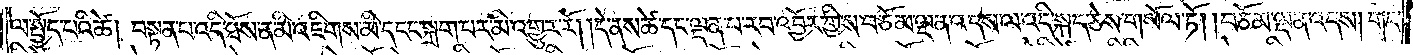ལ་སྤྱོད་པའི་ཚེ། བསྟན་པ་འདི་ཐོས་ན་མི་འཇིགས་མི་དངང་སྐྲག་པར་མི་འགྱུར་རོ། །དེ་ནས་ཚེ་དང་ལྡན་པ་རབ་འབྱོར་གྱིས་བཅོམ་ལྡན་འདས་ལ་འདི་སྐད་ཅེས་གསོལ་ཏོ། བཅོམ་ལྡན་འདས།གང་
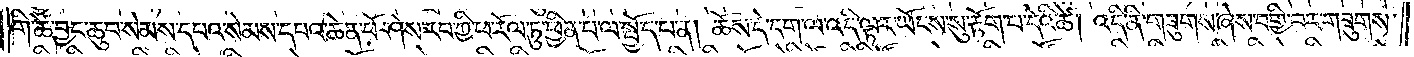གི་ཚེ་བྱང་ཆུབ་སེམས་དཔའ་སེམས་དཔའ་ཆེན་པོ་ཤེས་རབ་ཀྱི་ཕ་རོལ་ཏུ་ཕྱིན་པ་ལ་སྤྱོད་པ་ན། ཆོས་དེ་དག་ལ་འདི་ལྟར་ཡོངས་སུ་རྟོག་པ་དེའི་ཚེ། འདི་ནི་གཟུགས་ཞེས་བགྱི་བར་གཟུགས་
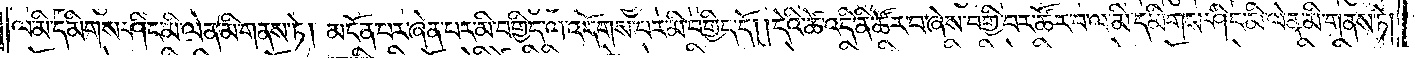ལ་མི་དམིགས་ཤིང་མི་ལེན་མི་གནས་ཏེ། མངོན་པར་ཞེན་པར་མི་བགྱིད་ལ་འདོགས་པར་མི་བགྱིད་དོ། །དེའི་ཚེ་འདི་ནི་ཚོར་བ་ཞེས་བགྱི་བར་ཚོར་བ་ལ་མི་དམིགས་ཤིང་མི་ལེན་མི་གནས་ཏེ།
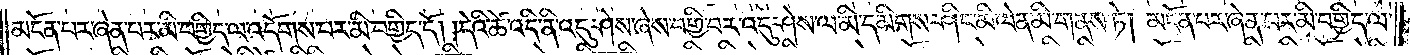མངོན་པར་ཞེན་པར་མི་བགྱིད་ལ་འདོགས་པར་མི་བགྱིད་དོ། །དེའི་ཚེ་འདི་ནི་འདུ་ཤེས་ཞེས་བགྱི་བར་འདུ་ཤེས་ལ་མི་དམིགས་ཤིང་མི་ལེན་མི་གནས་ཏེ། མངོན་པར་ཞེན་པར་མི་བགྱིད་ལ་
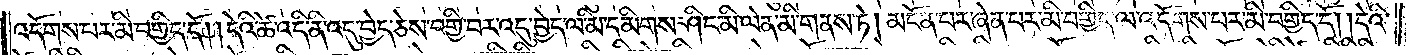འདོགས་པར་མི་བགྱིད་དོ། །དེའི་ཚེ་འདི་ནི་འདུ་བྱེད་ཅེས་བགྱི་བར་འདུ་བྱེད་ལ་མི་དམིགས་ཤིང་མི་ལེན་མི་གནས་ཏེ། མངོན་པར་ཞེན་པར་མ་བགྱིད་ལ་འདོགས་པར་མ་བགྱིད་དོ། །དེའི་
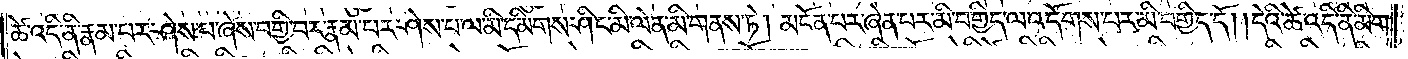ཚེ་འདི་ནི་རྣམ་པར་ཤེས་པ་ཞེས་བགྱི་བར་རྣམ་པར་ཤེས་པ་ལ་མི་དམིགས་ཤིང་མི་ལེན་མི་གནས་ཏེ། མངོན་པར་ཞེན་པར་མི་བགྱིད་ལ་འདོགས་པར་མི་བགྱིད་དོ། །དེའི་ཚེ་འདི་ནི་མིག་
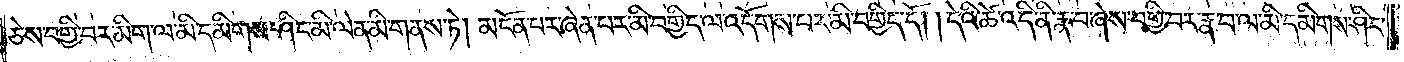ཅེས་བགྱི་བར་མིག་ལ་མི་དམིགས་ཤིང་མི་ལེན་མི་གནས་ཏེ། མངོན་པར་ཞེན་པར་མི་བགྱིད་ལ་འདོགས་པར་མི་བགྱིད་དོ། །དེའི་ཚེ་འདི་ནི་རྣ་བ་ཞེས་བགྱི་བར་རྣ་བ་ལ་མི་དམིགས་ཤིང་
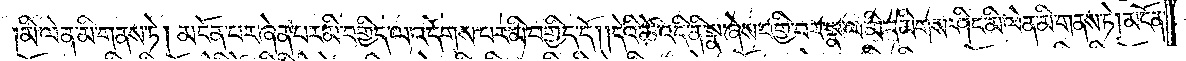མི་ལེན་མི་གནས་ཏེ། མངོན་པར་ཞེན་པར་མི་བགྱིད་ལ་འདོགས་པར་མི་བགྱིད་དོ། །དེའི་ཚེ་འདི་ནི་སྣ་ཞེས་བགྱི་བར་སྣ་ལ་མི་དམིགས་ཤིང་མི་ལེན་མི་གནས་ཏེ། མངོན་
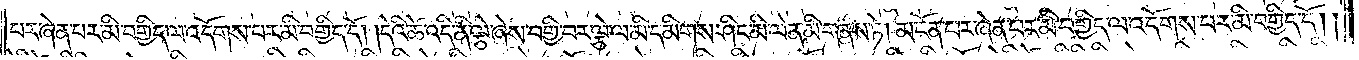པར་ཞེན་པར་མི་བགྱིད་ལ་འདོགས་པར་མི་བགྱིད་དོ། །དེའི་ཚེ་འདི་ནི་ལྕེ་ཞེས་བགྱི་བར་ལྕེ་ལ་མི་དམིགས་ཤིང་མི་ལེན་མི་གནས་ཏེ། མངོན་པར་ཞེན་པར་མི་བགྱིད་ལ་འདོགས་པར་མི་བགྱིད་དོ། །
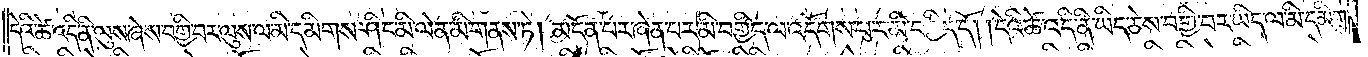དེའི་ཚེ་འདི་ནི་ལུས་ཞེས་བགྱི་བར་ལུས་ལ་མི་དམིགས་ཤིང་མི་ལེན་མི་གནས་ཏེ། མངོན་པར་ཞེན་པར་མི་བགྱིད་ལ་འདོགས་པར་མི་བགྱིད་དོ། །དེའི་ཚེ་འདི་ནི་ཡིད་ཅེས་བགྱི་བར་ཡིད་ལ་མི་དམིགས་
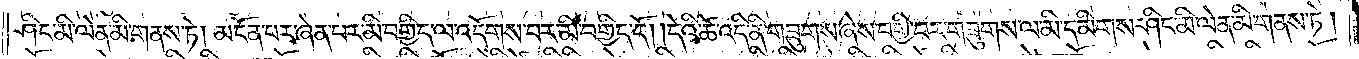ཤིང་མི་ལེན་མི་གནས་ཏེ། མངོན་པར་ཞེན་པར་མི་བགྱིད་ལ་འདོགས་པར་མི་བགྱིད་དོ། །དེའི་ཚེ་འདི་ནི་གཟུགས་ཞེས་བགྱི་བར་གཟུགས་ལ་མི་དམིགས་ཤིང་མི་ལན་མི་གནས་ཏེ།
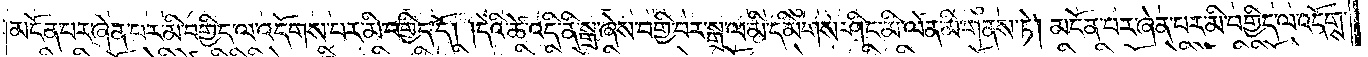མངོན་པར་ཞེན་པར་མི་བགྱིད་ལ་འདོགས་པར་མི་བགྱིད་དོ། །དེའི་ཚེ་འདི་ནི་སྒྲ་ཞེས་བགྱི་བར་སྒྲ་ལ་མི་དམིགས་ཤིང་མི་ལེན་མི་གནས་ཏེ། མངོན་པར་ཞེན་པར་མི་བགྱིད་ལ་འདོགས་
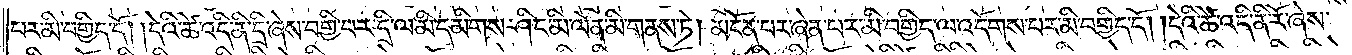པར་མི་བགྱིད་དོ། །དེའི་ཚེ་འདི་ནི་དྲི་ཞེས་བགྱི་བར་དྲི་ལ་མི་དམིགས་ཤིང་མི་ལེན་མི་གནས་ཏེ། མངོན་པར་ཞེན་པར་མི་བགྱིད་ལ་འདོགས་པར་མི་བགྱིད་དོ། །དེའི་ཚེ་འདི་ནི་རོ་ཞེས་
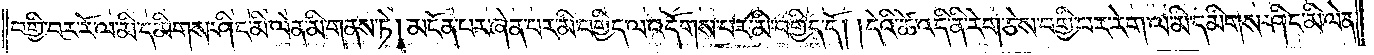བགྱི་བར་རོ་ལ་མི་དམིགས་ཤིང་མི་ལེན་མི་གནས་ཏེ། མངོན་པར་ཞེན་པར་མི་བགྱིད་ལ་འདོགས་པར་མི་བགྱིད་དོ། །དེའི་ཚེ་འདི་ནི་རེག་ཅེས་བགྱི་བར་རེག་ལ་མི་དམིགས་ཤིང་མི་ལེན་
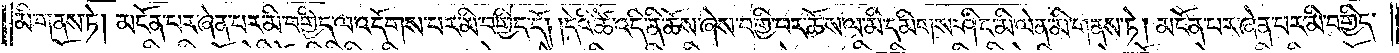མི་གནས་ཏེ། མངོན་པར་ཞེན་པར་མི་བགྱིད་ལ་འདོགས་པར་མི་བགྱིད་དོ། །དེའི་ཚེ་འདི་ནི་ཆོས་ཞེས་བགྱི་བར་ཆོས་ལ་མི་དམིགས་ཤིང་མི་ལེན་མི་གནས་ཏེ། མངོན་པར་ཞེན་པར་མི་བགྱིད་
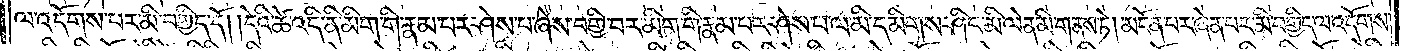ལ་འདོགས་པར་མི་བགྱིད་དོ། །དེའི་ཚེ་འདི་ནི་མིག་གི་རྣམ་པར་ཤེས་པ་ཞེས་བགྱི་བར་མིག་གི་རྣམ་པར་ཤེས་པ་ལ་མི་དམིགས་ཤིང་མི་ལེན་མི་གནས་ཏེ། མངོན་པར་ཞེན་པར་མི་བགྱིད་ལ་འདོགས་
